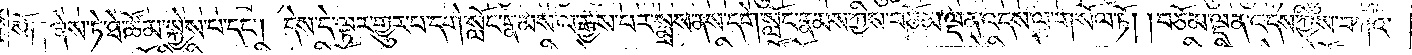སོ༑ ༑ཞེས་ཏེ་ཐེ་ཚོམ་སྐྱེས་པ་དང༌། དེས་དེ་ལྟར་གྱུར་པ་དགེ་སློང་རྣམས་ལ་རྒྱས་པར་སྨྲས་ནས་དགེ་སློང་རྣམས་ཀྱིས་བཅོམ་ལྡན་འདས་ལ་གསོལ་ཏོ། །བཅོམ་ལྡན་འདས་ཀྱིས་བཀའ་
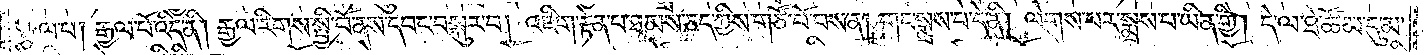སྩལ་པ། རྒྱལ་པོ་འདི་ནི། རྒྱལ་རིགས་སྤྱི་བོ་ནས་དབང་བསྐུར་བ། འཇིག་རྟེན་པ་ཐམས་ཅད་ཀྱིས་གཙོ་བོ་བས་ན། གང་སྨྲས་པ་དེ་ནི། ལེགས་པར་སྨྲས་པ་ཡིན་གྱི། དེ་ལ་ཐེ་ཚོམ་དུ་མ་
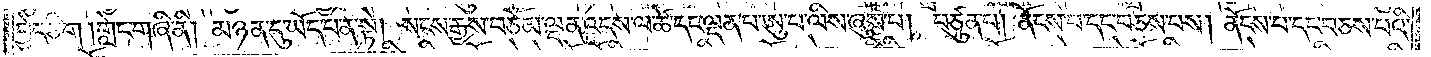བྱེད་ཅིག །གླེང་གཞི་ནི། མཉན་དུ་ཡོད་པ་ན་སྟེ། སངས་རྒྱས་བཅོམ་ལྡན་འདས་ལ་ཚེ་དང་ལྡན་པ་ཨུ་པ་ལིས་ཞུས་པ། བཙུན་པ། ནོངས་པ་དང་བཅས་པས། ནོངས་པ་དང་བཅས་པའི་
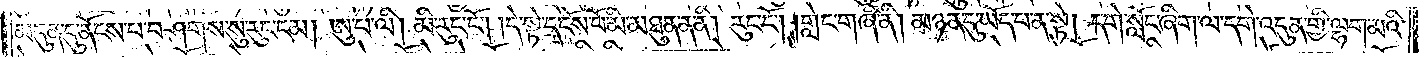མདུན་དུ་ནོངས་པ་བཤགས་སུ་རུང་ངམ། ཨུ་པ་ལི། མི་རུང་ངོ༌། །དེ་སྟེ་དངོས་པོ་མི་མཐུན་ན་ནི། རུང་ངོ༌། །གླེང་གཞི་ནི། མཉན་དུ་ཡོད་པ་ན་སྟེ། དགེ་སློང་ཞིག་ལ་དགེ་འདུན་གྱི་ལྷག་མའི་
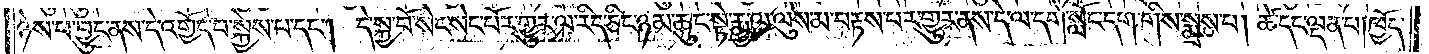ཉེས་པ་བྱུང་ནས་དེ་འགྱོད་པ་སྐྱེས་པ་དང༌། དེ་སྐྱ་བོ་སེང་སེང་པོར་གྱུར་ལ་རིད་ཅིང་ཉམ་ཆུང་སྟེ་རྨྱ་ལ་ལུས་མ་བརྟས་པར་གྱུར་ནས་དེ་ལ་དགེ་སློང་དག་གིས་སྨྲས་པ། ཚེ་དང་ལྡན་པ། ཁྱོད་
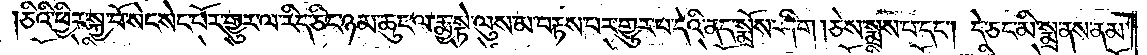ཅིའི་ཕྱིར་སྐྱ་བོ་སེང་སེང་པོར་གྱུར་ལ་རིད་ཅིང་ཉམ་ཆུང་ལ་རྨྱ་སྟེ་ལུས་མ་བརྟས་པར་གྱུར་པ་དེའི་ནད་སྨྲོས་ཤིག །ཅེས་སྨྲས་པ་དང༌། དེ་ཅང་མི་སྨྲ་ནས་ནམ་
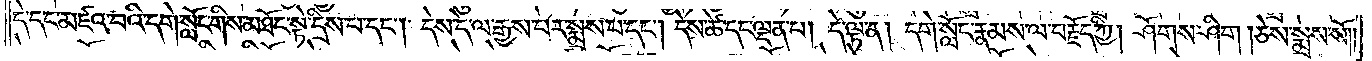དེ་དང་མཛའ་བའི་དགེ་སློང་གིས་མཐོང་སྟེ་དྲིས་པ་དང༌། དེས་དེ་ལ་རྒྱས་པར་སྨྲས་པ་དང༌། དེས་ཚེ་དང་ལྡན་པ། དེ་ལྟ་ན། དགེ་སློང་རྣམས་ལ་བརྗོད་ཀྱི། ཤོགས་ཤིག །ཅེས་སྨྲས་སོ༎
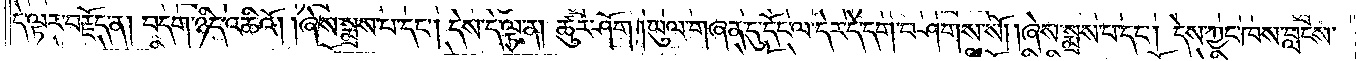དེ་ལྟར་བརྗོད་ན། བདག་ཉིད་འཆིའོ། །ཞེས་སྨྲས་པ་དང༌། དེས་དེ་ལྟ་ན། ཚུར་ཤོག །ཡུལ་གཞན་དུ་དོང་ལ་དེར་དེ་དག་བཤགས་སོ། །ཞེས་སྨྲས་པ་དང༌། དེས་ཀྱང་ཁས་བླངས་
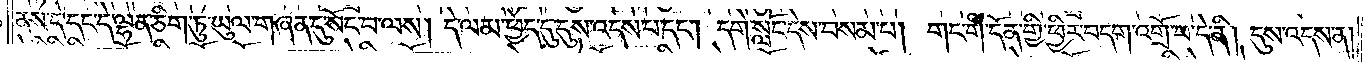ནས་དེ་དང་དེ་ལྷན་ཅིག་ཏུ་ཡུལ་གཞན་དུ་སོང་བ་ལས། དེ་ལམ་ཕྱེད་དུ་དུས་འདས་པ་དང༌། དགེ་སློང་དེས་བསམ་པ། གང་གི་དོན་གྱི་ཕྱིར་བདག་འགྲོ་བ་དེ་ནི། དུས་འདས་ན།
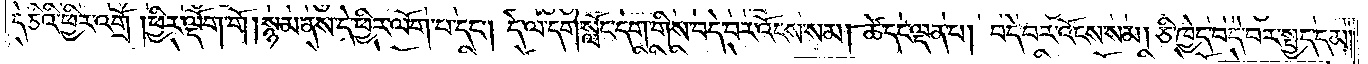དེ་ཅིའི་ཕྱིར་འགྲོ་།ཕྱིར་ལྡོག་གོ །སྙམ་ནས་དེ་ཕྱིར་ལོག་པ་དང༌། དེ་ལ་དགེ་སློང་དག་གིས་བདེ་བར་འོངས་སམ། ཚེ་དང་ལྡན་པ། བདེ་བར་འོངས་སམ། ཅི་ཁྱེད་བདེ་བར་སྤྱད་དམ།
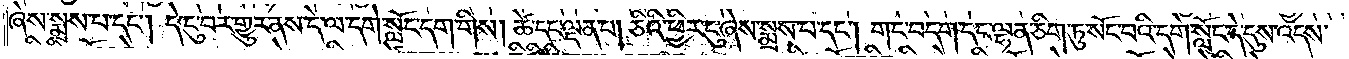ཞེས་སྨྲས་པ་དང༌། དེ་ངུ་བར་གྱུར་ནས་དེ་ལ་དགེ་སློང་དག་གིས། ཚེ་དང་ལྡན་པ། ཅིའི་ཕྱིར་ངུ་ཞེས་སྨྲས་པ་དང༌། གང་བདག་དང་ལྷན་ཅིག་ཏུ་སོང་བའི་དགེ་སློང་དེ་དུས་འདས་
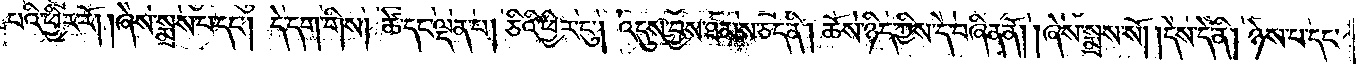པའི་ཕྱིར་རོ། །ཞེས་སྨྲས་པ་དང༌། དེ་དག་གིས། ཚེ་དང་ལྡན་པ། ཅིའི་ཕྱིར་ངུ༌། འདུས་བྱས་ཐམས་ཅད་ནི། ཆོས་ཉིད་ཀྱིས་དེ་བཞིན་ནོ། །ཞེས་སྨྲས་སོ། །དེས་དེ་ནི། ཉེས་པ་དང་
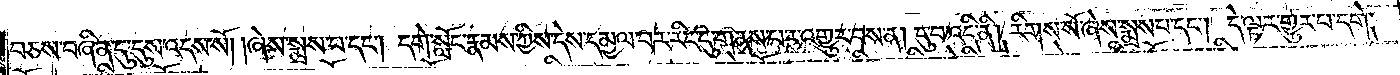བཅས་བཞིན་དུ་དུས་འདས་སོ། །ཞེས་སྨྲས་པ་དང༌། དགེ་སློང་རྣམས་ཀྱིས་དེས་དམྱལ་བར་རིང་དུ་གནས་པར་འགྱུར་བས་ན། ངུ་བ་འདི་ནི། རིགས་སོ་ཞེས་སྨྲས་པ་དང༌། དེ་ལྟར་གྱུར་པ་དགེ་
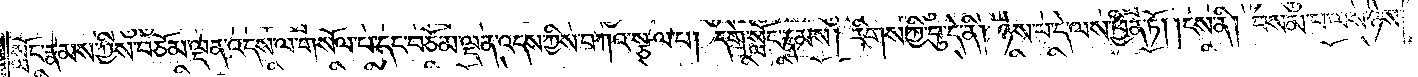སློང་རྣམས་ཀྱིས་བཅོམ་ལྡན་འདས་ལ་གསོལ་པ་དང་བཅོམ་ལྡན་འདས་ཀྱིས་བཀའ་སྩལ་པ། དགེ་སློང་རྣམས། རིགས་ཀྱི་བུ་དེ་ནི། ཉེས་པ་དེ་ལས་ཕྱིན་ཏོ། །ངས་ནི། བསམ་པ་ལས་ཉེས་
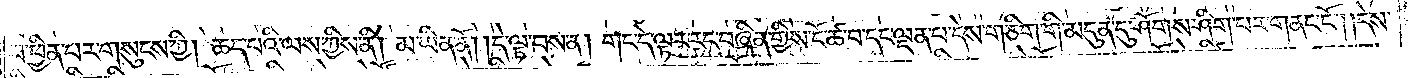པ་ཕྱིན་པར་གསུངས་ཀྱི། ཆད་པའི་ལས་ཀྱིས་ནི། མ་ཡིན་ནོ། །དེ་ལྟ་བས་ན། གང་དེ་ལྟར་རང་བཞིན་གྱིས་ངོ་ཚ་བ་དང་ལྡན་པ་དེས་གཅིག་གི་མདུན་དུ་ཤོགས་ཤིག་པར་གནང་ངོ༌། །དེས་
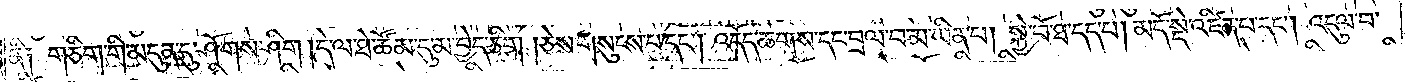ནི༑ གཅིག་གི་མདུན་དུ་ཤོགས་ཤིག །དེ་ལ་ཐེ་ཚོམ་དུ་མ་བྱེད་ཅིག །ཅེས་གསུངས་པ་དང༌། འདོད་ཆགས་དང་བྲལ་བ་མ་ཡིན་པ། སྐྱེ་བོ་ཐ་དད་པ། མདོ་སྡེ་འཛིན་པ་དང༌། འདུལ་བ་
